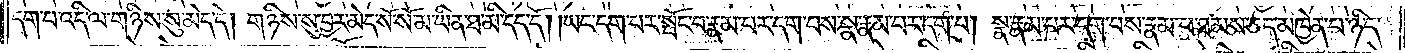དག་པ་འདི་ལ་གཉིས་སུ་མེད་དེ། གཉིས་སུ་བྱར་མེད་སོ་སོ་མ་ཡིན་ཐ་མི་དད་དོ། །ཡང་དག་པར་སྤོང་བ་རྣམ་པར་དག་པས་སྣ་རྣམ་པར་དག་པ། སྣ་རྣམ་པར་དག་པས་རྣམ་པ་ཐམས་ཅད་མཁྱེན་པ་ཉིད་
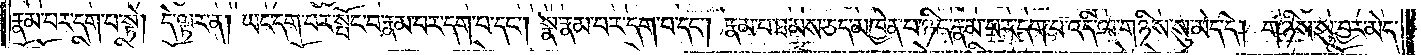རྣམ་པར་དག་པ་སྟེ། དེ་ལྟར་ན། ཡང་དག་པར་སྤོང་བ་རྣམ་པར་དག་པ་དང༌། སྣ་རྣམ་པར་དག་པ་དང༌། རྣམ་པ་ཐམས་ཅད་མཁྱེན་པ་ཉིད་རྣམ་པར་དག་པ་འདི་ལ་གཉིས་སུ་མེད་དེ། གཉིས་སུ་བྱར་མེད་
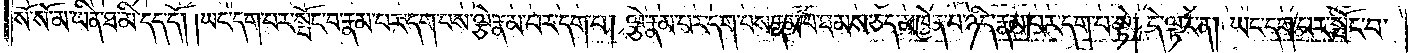སོ་སོ་མ་ཡིན་ཐ་མི་དད་དོ། །ཡང་དག་པར་སྤོང་བ་རྣམ་པར་དག་པས་ལྕེ་རྣམ་པར་དག་པ། ལྕེ་རྣམ་པར་དག་པས་རྣམ་པ་ཐམས་ཅད་མཁྱེན་པ་ཉིད་རྣམ་པར་དག་པ་སྟེ། དེ་ལྟར་ན། ཡང་དག་པར་སྤོང་བ་
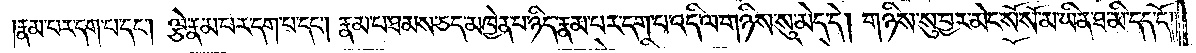རྣམ་པར་དག་པ་དང༌། ལྕེ་རྣམ་པར་དག་པ་དང༌། རྣམ་པ་ཐམས་ཅད་མཁྱེན་པ་ཉིད་རྣམ་པར་དག་པ་འདི་ལ་གཉིས་སུ་མེད་དེ། གཉིས་སུ་བྱར་མེད་སོ་སོ་མ་ཡིན་ཐ་མི་དད་དོ། །
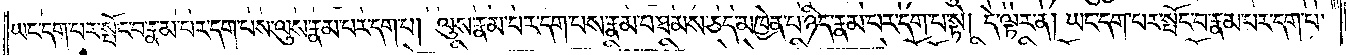ཡང་དག་པར་སྤོང་བ་རྣམ་པར་དག་པས་ལུས་རྣམ་པར་དག་པ། ལུས་རྣམ་པར་དག་པས་རྣམ་པ་ཐམས་ཅད་མཁྱེན་པ་ཉིད་རྣམ་པར་དག་པ་སྟེ། དེ་ལྟར་ན། ཡང་དག་པར་སྤོང་བ་རྣམ་པར་དག་པ་
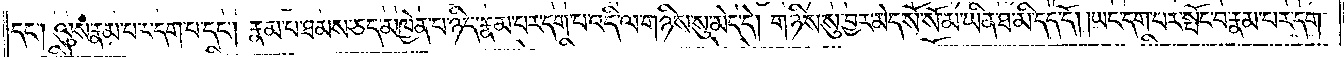དང༌། ལུས་རྣམ་པར་དག་པ་དང༌། རྣམ་པ་ཐམས་ཅད་མཁྱེན་པ་ཉིད་རྣམ་པར་དག་པ་འདི་ལ་གཉིས་སུ་མེད་དེ། གཉིས་སུ་བྱར་མེད་སོ་སོ་མ་ཡིན་ཐ་མི་དད་དོ། །ཡང་དག་པར་སྤོང་བ་རྣམ་པར་དག་
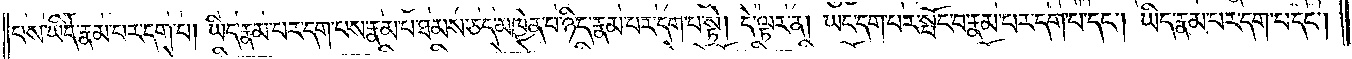པས་ཡིད་རྣམ་པར་དག་པ། ཡིད་རྣམ་པར་དག་པས་རྣམ་པ་ཐམས་ཅད་མཁྱེན་པ་ཉིད་རྣམ་པར་དག་པ་སྟེ། དེ་ལྟར་ན། ཡང་དག་པར་སྤོང་བ་རྣམ་པར་དག་པ་དང༌། ཡིད་རྣམ་པར་དག་པ་དང༌།
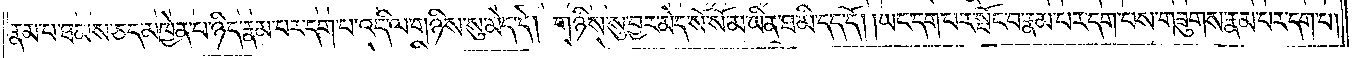རྣམ་པ་ཐམས་ཅད་མཁྱེན་པ་ཉིད་རྣམ་པར་དག་པ་འདི་ལ་གཉིས་སུ་མེད་དེ། གཉིས་སུ་བྱར་མེད་སོ་སོ་མ་ཡིན་ཐ་མི་དད་དོ། །ཡང་དག་པར་སྤོང་བ་རྣམ་པར་དག་པས་གཟུགས་རྣམ་པར་དག་པ།
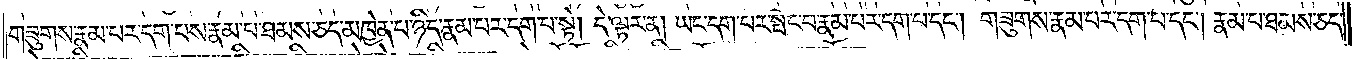གཟུགས་རྣམ་པར་དག་པས་རྣམ་པ་ཐམས་ཅད་མཁྱེན་པ་ཉིད་རྣམ་པར་དག་པ་སྟེ། དེ་ལྟར་ན། ཡང་དག་པར་སྤོང་བ་རྣམ་པར་དག་པ་དང༌། གཟུགས་རྣམ་པར་དག་པ་དང༌། རྣམ་པ་ཐམས་ཅད་
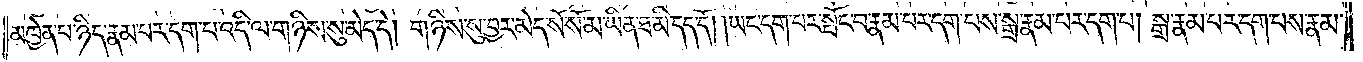མཁྱེན་པ་ཉིད་རྣམ་པར་དག་པ་འདི་ལ་གཉིས་སུ་མེད་དེ། གཉིས་སུ་བྱར་མེད་སོ་སོ་མ་ཡིན་ཐ་མི་དད་དོ། །ཡང་དག་པར་སྤོང་བ་རྣམ་པར་དག་པས་སྒྲ་རྣམ་པར་དག་པ། སྒྲ་རྣམ་པར་དག་པས་རྣམ་
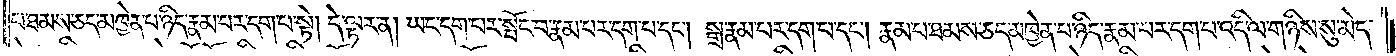པ་ཐམས་ཅད་མཁྱེན་པ་ཉིད་རྣམ་པར་དག་པ་སྟེ། དེ་ལྟར་ན། ཡང་དག་པར་སྤོང་བ་རྣམ་པར་དག་པ་དང༌། སྒྲ་རྣམ་པར་དག་པ་དང༌། རྣམ་པ་ཐམས་ཅད་མཁྱེན་པ་ཉིད་རྣམ་པར་དག་པ་འདི་ལ་གཉིས་སུ་མེད་
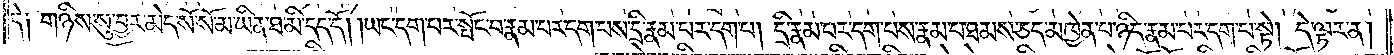དེ༑ གཉིས་སུ་བྱར་མེད་སོ་སོ་མ་ཡིན་ཐ་མི་དད་དོ། །ཡང་དག་པར་སྤོང་བ་རྣམ་པར་དག་པས་དྲི་རྣམ་པར་དག་པ། དྲི་རྣམ་པར་དག་པས་རྣམ་པ་ཐམས་ཅད་མཁྱེན་པ་ཉིད་རྣམ་པར་དག་པ་སྟེ། དེ་ལྟར་ན།
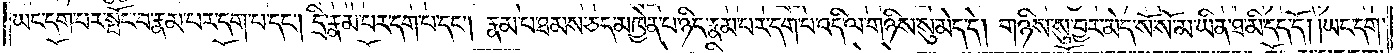ཡང་དག་པར་སྤོང་བ་རྣམ་པར་དག་པ་དང༌། དྲི་རྣམ་པར་དག་པ་དང༌། རྣམ་པ་ཐམས་ཅད་མཁྱེན་པ་ཉིད་རྣམ་པར་དག་པ་འདི་ལ་གཉིས་སུ་མེད་དེ། གཉིས་སུ་བྱར་མེད་སོ་སོ་མ་ཡིན་ཐ་མི་དད་དོ། ། ཡང་དག་
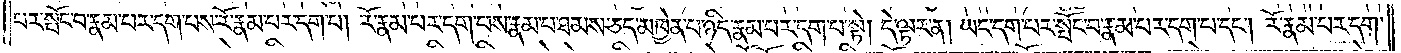པར་སྤོང་བ་རྣམ་པར་དག་པས་རོ་རྣམ་པར་དག་པ། རོ་རྣམ་པར་དག་པས་རྣམ་པ་ཐམས་ཅད་མཁྱེན་པ་ཉིད་རྣམ་པར་དག་པ་སྟེ། དེ་ལྟར་ན། ཡང་དག་པར་སྤོང་བ་རྣམ་པར་དག་པ་དང༌། རོ་རྣམ་པར་དག་
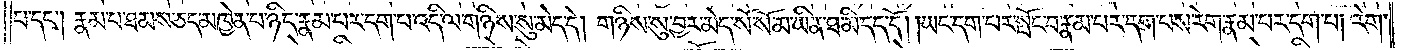པ་དང༌། རྣམ་པ་ཐམས་ཅད་མཁྱེན་པ་ཉིད་རྣམ་པར་དག་པ་འདི་ལ་གཉིས་སུ་མེད་དེ། གཉིས་སུ་བྱར་མེད་སོ་སོ་མ་ཡིན་ཐ་མི་དད་དོ། །ཡང་དག་པར་སྤོང་བ་རྣམ་པར་དག་པས་རེག་རྣམ་པར་དག་པ། རེག་
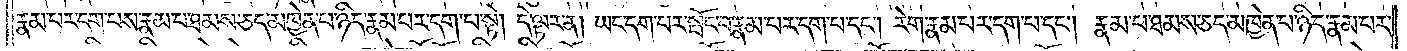རྣམ་པར་དག་པས་རྣམ་པ་ཐམས་ཅད་མཁྱེན་པ་ཉིད་རྣམ་པར་དག་པ་སྟེ། དེ་ལྟར་ན། ཡང་དག་པར་སྤོང་བ་རྣམ་པར་དག་པ་དང༌། རེག་རྣམ་པར་དག་པ་དང༌། རྣམ་པ་ཐམས་ཅད་མཁྱེན་པ་ཉིད་རྣམ་པར་
